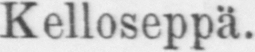Kelloseppä.
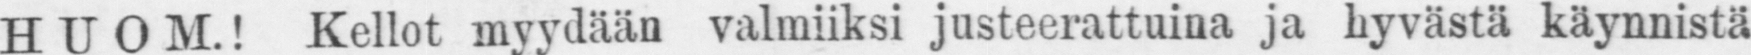HUOM.! Kellot myydään valmiiksi justeerattunia ja hyvästä k ä ynnist ä
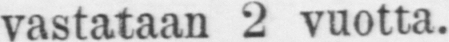vastataan 2 vuotta.
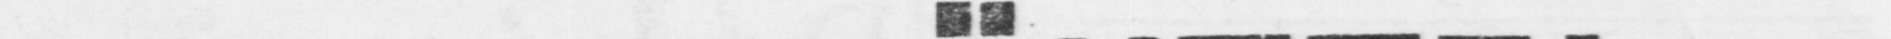JOULUNAYTTELY
